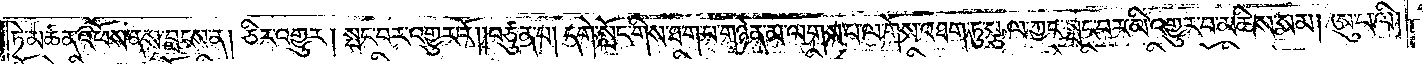ཏེ་མཚན་འཕོས་ནས་བླངས་ན། ཅིར་འགྱུར། སྤང་བར་འགྱུར་རོ། །བཙུན་པ། དགེ་སློང་གིས་ཐ་ག་པ་གཉེན་མ་ལགས་པ་ལ་གོས་འཐག་ཏུ་སྩལ་ཀྱང་སྤང་བར་མི་འགྱུར་བ་མཆིས་སམ། ཨུ་པ་ལི།
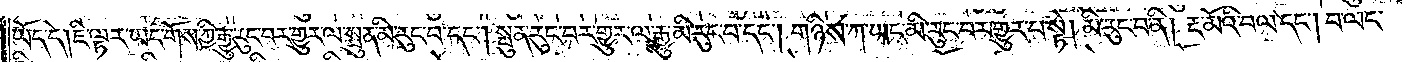ཡོད་དེ། ཇི་ལྟར་ཡང་གོས་ཀྱི་རྒྱུ་རུང་བར་གྱུར་ལ་སྤུན་མི་རུང་བ་དང༌། སྤུན་རུང་བར་གྱུར་ལ་རྒྱུ་མི་རུང་བ་དང༌། གཉིས་ཀ་ཡང་མི་རུང་བར་གྱུར་པ་སྟེ། མི་རུང་བ་ནི། རྔ་མོའི་བལ་དང༌། བ་ལང་
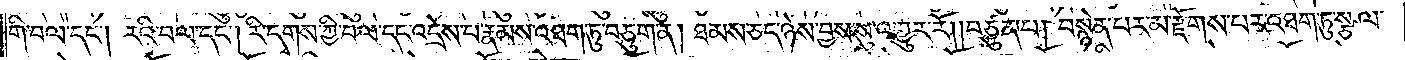གི་བལ་དང༌། རའི་བལ་དང༌། རི་དྭགས་ཀྱི་བལ་དང་འདྲེས་པ་རྣམས་འཐག་ཏུ་བཅུག་ན། ཐམས་ཅད་ཉེས་བྱས་སུ་འགྱུར་རོ། །བཙུན་པ། བསྙེན་པར་མ་རྫོགས་པར་འཐག་ཏུ་སྩལ་
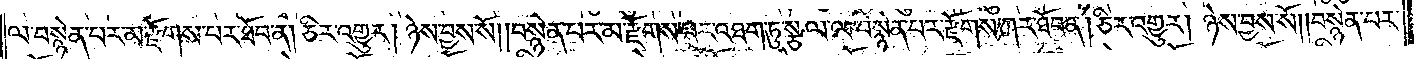ལ་བསྙེན་པར་མ་རྫོགས་པར་ཐོབ་ན། ཅིར་འགྱུར། ཉེས་བྱས་སོ། །བསྙེན་པར་མ་རྫོགས་པར་འཐག་ཏུ་སྩལ་ལ་བསྙེན་པར་རྫོགས་ཀར་ཐོབ་ན། ཅིར་འགྱུར། ཉེས་བྱས་སོ། །བསྙེན་པར་
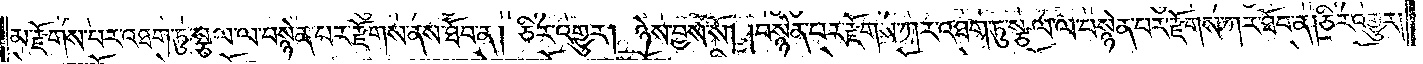མ་རྫོགས་པར་འཐག་ཏུ་སྩལ་ལ་བསྙེན་པར་རྫོགས་ནས་ཐོབ་ན། ཅིར་འགྱུར། ཉེས་བྱས་སོ། །བསྙེན་པར་རྫོགས་ཀར་འཐག་ཏུ་སྩལ་ལ་བསྙེན་པར་རྫོགས་ཀར་ཐོབ་ན། ཅིར་འགྱུར་
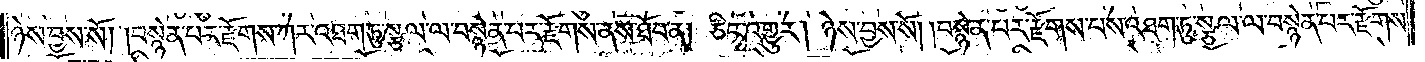ཉེས་བྱས་སོ། །བསྙེན་པར་རྫོགས་ཀར་འཐག་ཏུ་སྩལ་ལ་བསྙེན་པར་རྫོགས་ནས་ཐོབ་ན། ཅིར་འགྱུར། ཉེས་བྱས་སོ། །བསྙེན་པར་རྫོགས་པས་འཐག་ཏུ་སྩལ་ལ་བསྙེན་པར་རྫོགས་
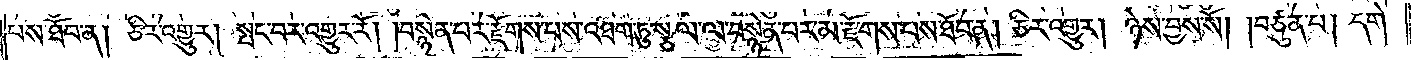པས་ཐོབ་ན། ཅིར་འགྱུར། སྤང་བར་འགྱུར་རོ། །བསྙེན་པར་རྫོགས་པས་འཐག་ཏུ་སྩལ་ལ་བསྙེན་པར་མ་རྫོགས་པས་ཐོབ་ན། ཅིར་འགྱུར། ཉེས་བྱས་སོ། །བཙུན་པ། དགེ་
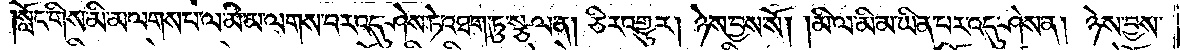སློང་གིས་མི་མ་ལགས་པ་ལ་མི་མ་ལགས་པར་འདུ་ཤེས་ཏེ་འཐག་ཏུ་སྩལ་ན། ཅིར་འགྱུར། ཉེས་བྱས་སོ། །མི་ལ་མི་མ་ཡིན་པར་འདུ་ཤེས་ན། ཉེས་བྱས་
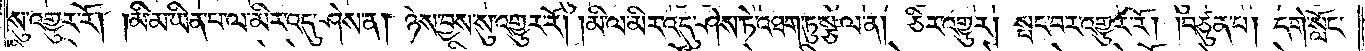སུ་འགྱུར་རོ། །མི་མ་ཡིན་པ་ལ་མིར་འདུ་ཤེས་ན། ཉེས་བྱས་སུ་འགྱུར་རོ། །མི་ལ་མིར་འདུ་ཤེས་ཏེ་འཐག་ཏུ་སྩལ་ན། ཅིར་འགྱུར། སྤང་བར་འགྱུར་རོ། །བཙུན་པ། དགེ་སློང་
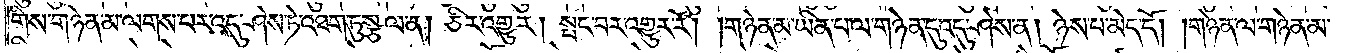གིས་གཉེན་མ་ལགས་པར་འདུ་ཤེས་ཏེ་འཐག་ཏུ་སྩལ་ན། ཅིར་འགྱུར། སྤང་བར་འགྱུར་རོ། །གཉེན་མ་ཡིན་པ་ལ་གཉེན་དུ་འདུ་ཤེས་ན། ཉེས་པ་མེད་དོ། །གཉེན་ལ་གཉེན་མ་
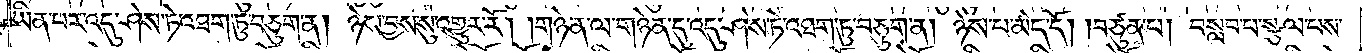ཡིན་པར་འདུ་ཤེས་ཏེ་འཐག་ཏུ་བཅུག་ན། ཉེས་བྱས་སུ་འགྱུར་རོ། །གཉེན་ལ་གཉེན་དུ་འདུ་ཤེས་ཏེ་འཐག་ཏུ་བཅུག་ན། ཉེས་པ་མེད་དོ། །བཙུན་པ། བསླབ་པ་སྩལ་པས་
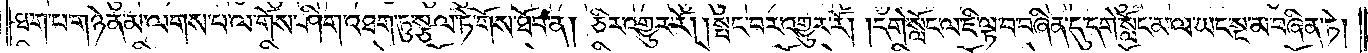ཐ་ག་པ་གཉེན་མ་ལགས་པ་ལ་གོས་ཤིག་འཐག་ཏུ་སྩལ་ཏེ་གོས་ཐོབ་ན། ཅིར་འགྱུར་རོ། །སྤང་བར་འགྱུར་རོ། །དགེ་སློང་ལ་ཇི་ལྟ་བ་བཞིན་དུ་དགེ་སློང་མ་ལ་ཡང་སྔ་མ་བཞིན་ཏེ།
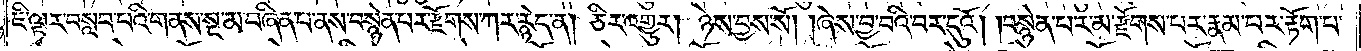ཇི་ལྟར་བསླབ་པའི་གནས་སྔ་མ་བཞིན་པ་ནས་བསྙེན་པར་རྫོགས་ཀར་རྙེད་ན། ཅིར་འགྱུར། ཉེས་བྱས་སོ། །ཞེས་བྱ་བའི་བར་དུའོ། །བསྙེན་པར་མ་རྫོགས་པར་རྣམ་པར་རྟོག་པ་
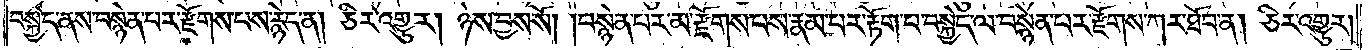བསྐྱེད་ནས་བསྙེན་པར་རྫོགས་པས་རྙེད་ན། ཅིར་འགྱུར། ཉེས་བྱས་སོ། །བསྙེན་པར་མ་རྫོགས་པས་རྣམ་པར་རྟོག་པ་བསྐྱེད་ལ་བསྙེན་པར་རྫོགས་ཀར་ཐོབ་ན། ཅིར་འགྱུར།
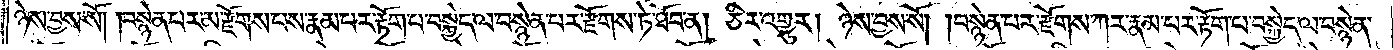ཉེས་བྱས་སོ། །བསྙེན་པར་མ་རྫོགས་པས་རྣམ་པར་རྟོག་པ་བསྐྱེད་ལ་བསྙེན་པར་རྫོགས་ཏེ་ཐོབ་ན། ཅིར་འགྱུར། ཉེས་བྱས་སོ། །བསྙེན་པར་རྫོགས་ཀར་རྣམ་པར་རྟོག་པ་བསྐྱེད་ལ་བསྙེན་
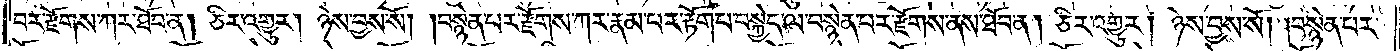པར་རྫོགས་ཀར་ཐོབ་ན། ཅིར་འགྱུར། ཉེས་བྱས་སོ། །བསྙེན་པར་རྫོགས་ཀར་རྣམ་པར་རྟོག་པ་བསྐྱེད་ལ་བསྙེན་པར་རྫོགས་ནས་ཐོབ་ན། ཅིར་འགྱུར། ཉེས་བྱས་སོ། །བསྙེན་པར་
